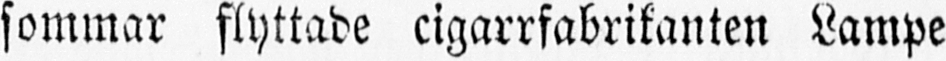sommar flyttade cigarrfabrikanten Lampe
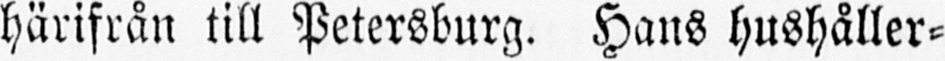härifrån till Petersburg. Hans hushåller-
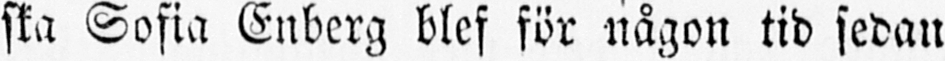ska Sofia Enberg blef för någon tid sedan
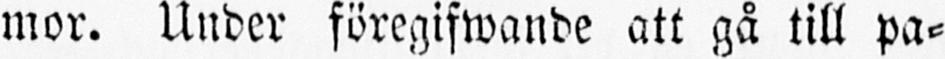mor. Under föregifwande att gå till pa-
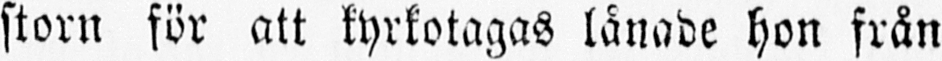storn för att kyrkotagas lånade hon från
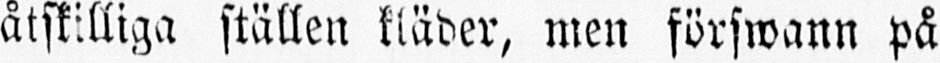åtskilliga ställen kläder, men förswann på
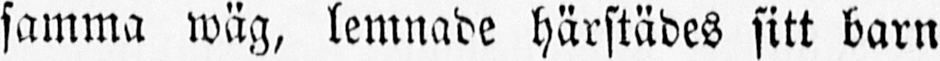samma wäg, lemnade härstädes sitt barn
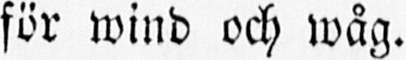för wind och wåg.
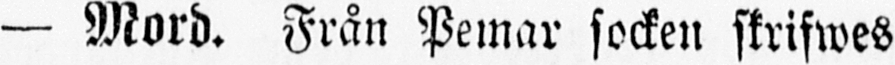— Mord. Från Pemar socken skrifwes
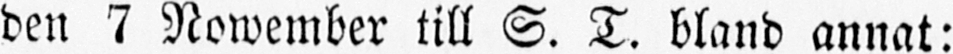den 7 Nowember till S. T. bland annat:
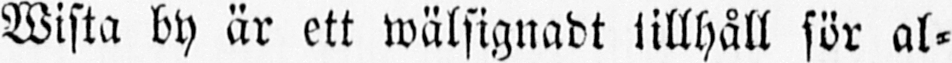Wista by är ett wälsignadt tillhåll för al-
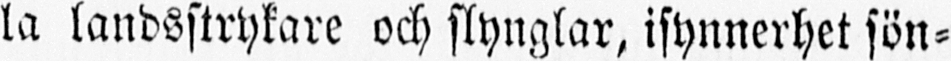la landsstrykare och slynglar, isynnerhet sön-
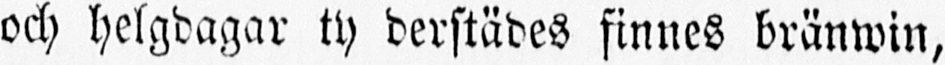och helgdagar ty derstädes finnes bränwin,
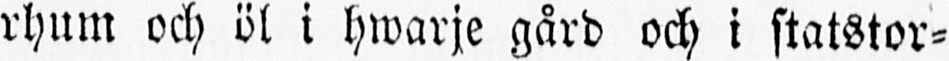rhum och öl i hwarje gård och i statstor-
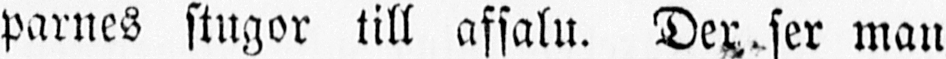parnes stugor till afsalu. Der ser man
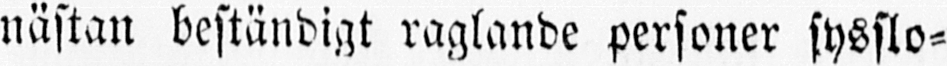nästan beständigt raglande personer sysslo-
